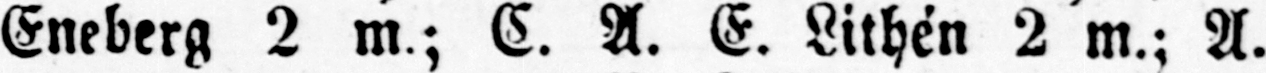Eneberg 2 m.; C. A. E. Lithén 2 m.; A.
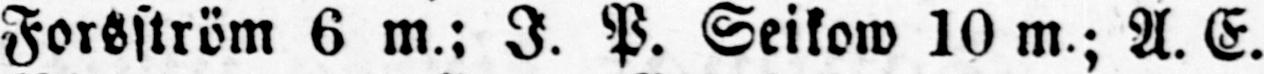Forsström 6 m.: I. P. Seikow 10 m ; A. E.
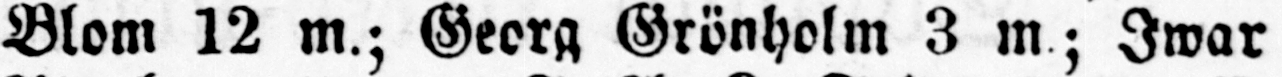Blom 12 m.; Georg Grönholm 3 m; Iwar
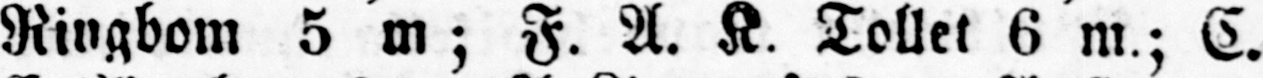Ringbom 5 m; F. A. K. Tollet 6 m.; C.
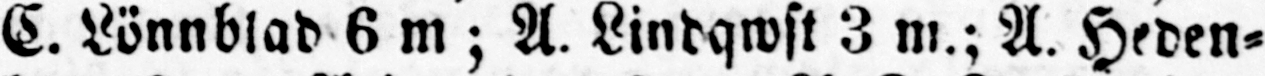C. Lönnblad 6 m ; A. Lindqwst 3 m.; A. Heden-
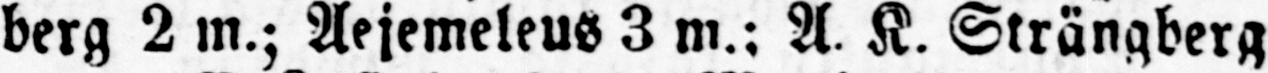berg 2 m.; Aejemeleus 3 m.; A. K. Strängberg
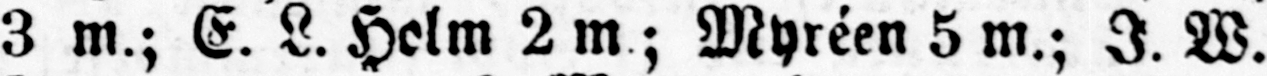3 m.; E. L. Helm 2 m ; Myréen 5 m.; I. W.
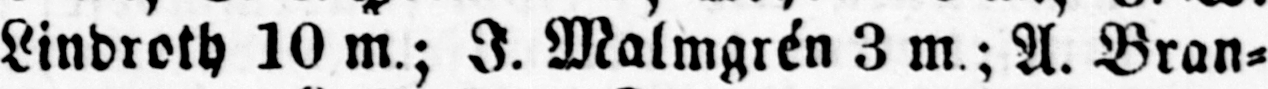Lindroth 10 m.; I. Malmgrén 3 m ; A. Bran-
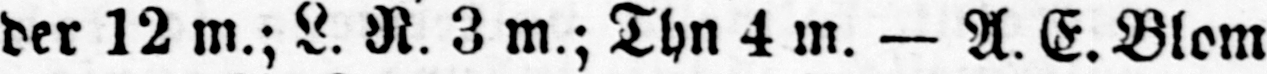der 12 m.; L. N. 3 m.; Thn 4 m. — A. E. Blom
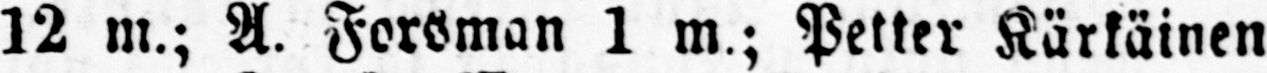12 m.; A. Forsman 1 m.; Petter Kärkäinen
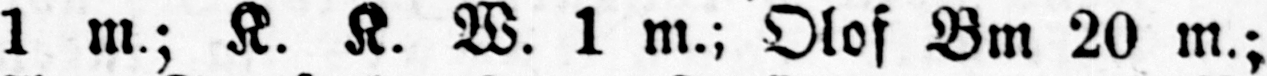1 m.; K. K. W. 1 m.; Olof Bm 20 m.;
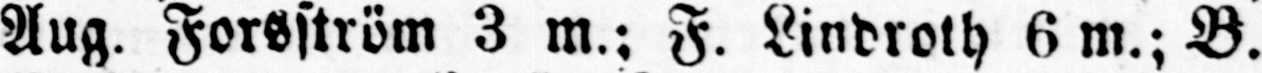Aug. Forsström 3 m.; F. Lindroth 6m.; B.
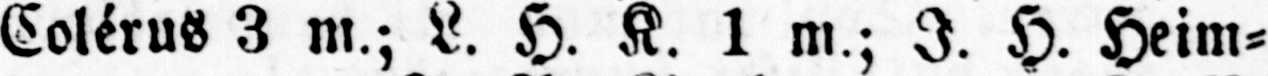Colérus 3 m.; L. H. K. 1 m.; I. H. Heim-
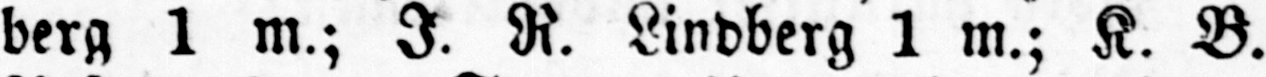berg 1 m.; I. R. Lindberg 1 m.; K. B.
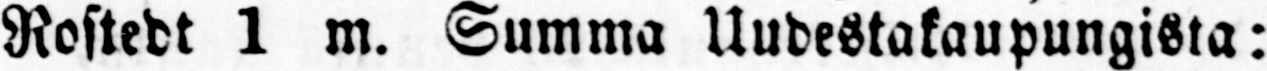Rostedt 1 m. Summa Uudestakaupungista:
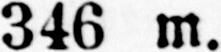346 m.
